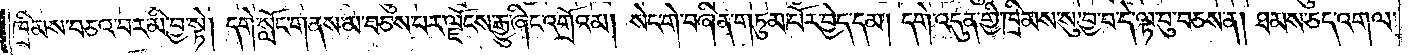ཁྲིམས་བཅའ་བར་མི་བྱ་སྟེ། དགེ་སློང་གནས་མ་བཅས་པར་ལྗོངས་རྒྱུ་ཞིང་འགྲོའམ། སེང་གེ་བཞིན་གཏུམ་པོར་བྱེད་དམ། དགེ་འདུན་གྱི་ཁྲིམས་སུ་བྱ་བ་དེ་ལྟ་བུ་བཅས་ན། ཐམས་ཅད་འགལ་
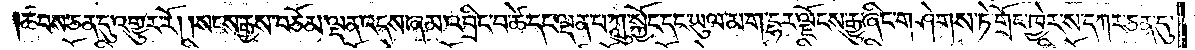ཚབས་ཅན་དུ་འགྱུར་རོ། །སངས་རྒྱས་བཅོམ་ལྡན་འདས་ཞམ་འབྲིང་བ་ཚེ་དང་ལྡན་པ་ཀླུ་སྐྱོང་དང་ཡུལ་མ་ག་དྷར་ལྗོངས་རྒྱུ་ཞིང་གཤེགས་ཏེ་གྲོང་ཁྱེར་ས་དཀར་ཅན་དུ་
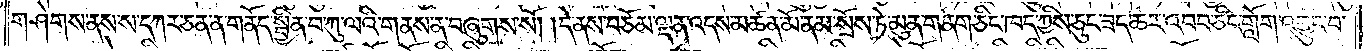གཤེགས་ནས་དཀར་ཅན་ན་གནོད་སྦྱིན་བ་ཀུ་ལའི་གནས་ན་བཞུགས་སོ། །དེ་ནས་བཅོམ་ལྡན་འདས་མཚན་མོ་ནམ་སྲོས་ཏེ་མུན་གནག་ཅིང་ཁད་ཀྱིས་ཅུང་ཟད་ཆར་འབབ་ཅིང་གློག་འབྱུང་བ་
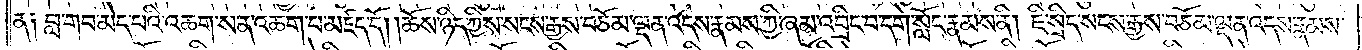ན༑ བླ་གབ་མེད་པའི་འཆག་ས་ན་འཆག་པ་མཛད་དོ། །ཆོས་ཉིད་ཀྱིས་སངས་རྒྱས་བཅོམ་ལྡན་འདས་རྣམས་ཀྱི་ཞམ་འབྲིང་བ་དགེ་སློང་རྣམས་ནི། ཇི་སྲིད་སངས་རྒྱས་བཅོམ་ལྡན་འདས་རྣམས་
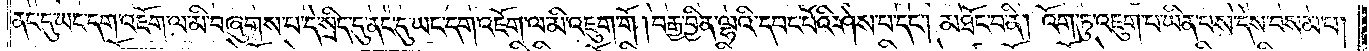ནང་དུ་ཡང་དག་འཇོག་ལ་མི་བཞུགས་པ་དེ་སྲིད་དུ་ནང་དུ་ཡང་དག་འཇོག་ལ་མི་འཇུག་གོ། བརྒྱ་བྱིན་ལྷའི་དབང་པོའི་ཤེས་པ་དང༌། མཐོང་བ་ནི། འོག་ཏུ་འཇུག་པ་ཡིན་པས་དེས་བསམ་པ།
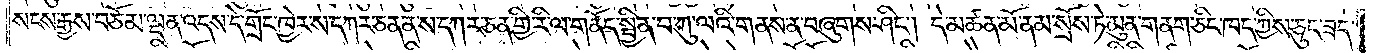སངས་རྒྱས་བཅོམ་ལྡན་འདས་དེ་གྲོང་ཁྱེར་ས་དཀར་ཅན་ན་ས་དཀར་ཅན་གྱི་རི་ལ་གནོད་སྦྱིན་བ་ཀུ་ལའི་གནས་ན་བཞུགས་ཤིང༌། དེ་མཚན་མོ་ནམ་སྲོས་ཏེ་མུན་གནག་ཅིང་ཁད་ཀྱིས་ཅུང་ཟད་
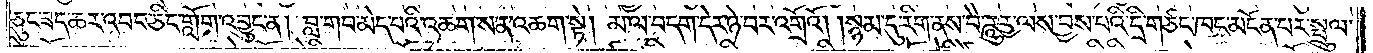ཅུང་ཟད་ཆར་འབབ་ཅིང་གློག་འབྱུང་ན། བླ་གབ་མེད་པའི་འཆག་ས་ན་འཆག་སྟེ། མ་ལ་བདག་དེར་ཉེ་བར་འགྲོའོ། །སྙམ་དུ་རིག་ནས་བཻ་ཌཱུཪྻ་ལས་བྱས་པའི་དྲི་གཙང་ཁང་མངོན་པར་སྤྲུལ་
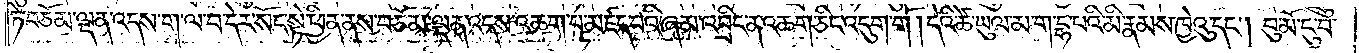ཏེ་བཅོམ་ལྡན་འདས་ག་ལ་བ་དེར་སོང་སྟེ་ཕྱིན་ནས་བཅོམ་ལྡན་འདས་འཆག་པ་མཛད་པའི་ཞམ་འབྲིང་ན་འཆག་ཅིང་འདུག་གོ །དེའི་ཚེ་ཡུལ་མ་ག་དྷ་པའི་མི་རྣམས་ཁྱེའུ་དང༌། བུ་མོ་ངུ་བ་
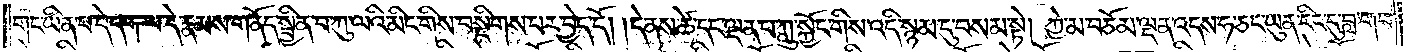གང་ཡིན་པ་དེ་དག་ལ་དེ་རྣམས་གནོད་སྦྱིན་བ་ཀུ་ལའི་མིང་གིས་བསྡིགས་པར་བྱེད་དོ། །དེ་ནས་ཚེ་དང་ལྡན་པ་ཀླུ་སྐྱོང་གིས་འདི་སྙམ་དུ་བསམ་སྟེ། ཀྱེ་མ་བཅོམ་ལྡན་འདས་ཧ་ཅང་ཡུན་རིང་དུ་བླ་གབ་
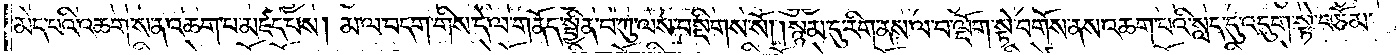མེད་པའི་འཆག་ས་ན་འཆག་པ་མཛད་པས། མ་ལ་བདག་གིས་དེ་ལ་གནོད་སྦྱིན་བ་ཀུ་ལས་བསྡིགས་སོ། །སྙམ་དུ་རིག་ནས་ལ་བ་ལྡོག་སྟེ་བགོས་ནས་འཆག་པའི་སླད་དུ་འདུག་སྟེ་བཅོམ་
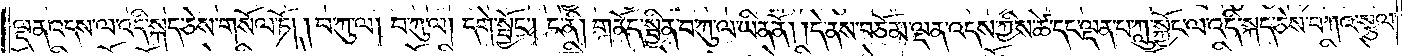ལྡན་འདས་ལ་འདི་སྐད་ཅེས་གསོལ་ཏོ། །བ་ཀུ་ལ། བ་ཀུ་ལ། དགེ་སྦྱོང༌། ང་ནི། གནོད་སྦྱིན་བ་ཀུ་ལ་ཡིན་ནོ། །དེ་ནས་བཅོམ་ལྡན་འདས་ཀྱིས་ཚེ་དང་ལྡན་པ་ཀླུ་སྐྱོང་ལ་འདི་སྐད་ཅེས་བཀའ་སྩལ་
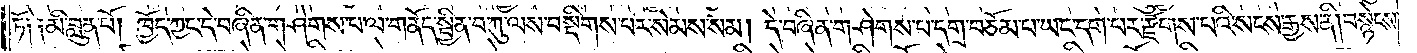ཏོ༑ ༑མི་བླུན་པོ། ཁྱོད་ཀྱང་དེ་བཞིན་གཤེགས་པ་ལ་གནོད་སྦྱིན་བ་ཀུ་ལས་བསྡིགས་པར་སེམས་སམ། དེ་བཞིན་གཤེགས་པ་དགྲ་བཅོམ་པ་ཡང་དག་པར་རྫོགས་པའི་སངས་རྒྱས་ནི། བསྙེངས་
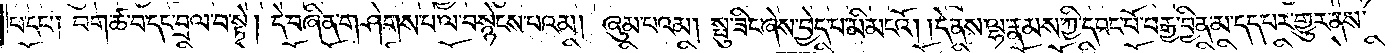པ་དང༌། བག་ཚ་བ་དང་བྲལ་བ་སྟེ། དེ་བཞིན་གཤེགས་པ་ལ་བསྙེངས་པའམ། ཞུམ་པའམ། སྤུ་ཟིང་ཞེས་བྱེད་པ་མི་མངའོ། །དེ་ནས་ལྷ་རྣམས་ཀྱི་དབང་པོ་བརྒྱ་བྱིན་མ་དད་པར་གྱུར་ནས་
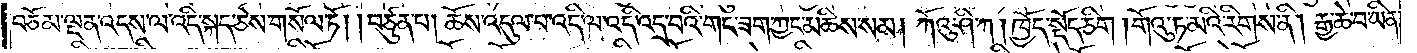བཅོམ་ལྡན་འདས་ལ་འདི་སྐད་ཅེས་གསོལ་ཏོ། །བཙུན་པ། ཆོས་འདུལ་བ་འདི་ལ་འདི་འདྲ་བའི་གང་ཟག་ཀྱང་མཆིས་སམ། ཀོའུ་ཤི་ཀ། ཁྱོད་སྡོད་ཅིག །གོའུ་ཏ་མའི་རིགས་ནི། རྒྱ་ཆེ་བ་ཡིན་
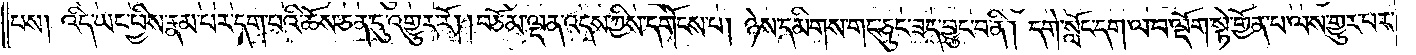པས། འདི་ཡང་ཕྱིས་རྣམ་པར་དག་པའི་ཆོས་ཅན་དུ་འགྱུར་རོ། །བཅོམ་ལྡན་འདས་ཀྱིས་དགོངས་པ། ཉེས་དམིགས་གང་ཅུང་ཟད་བྱུང་བ་ནི། དགེ་སློང་དག་ལ་བ་ལྡོག་སྟེ་གྱོན་པ་ལས་གྱུར་པར་
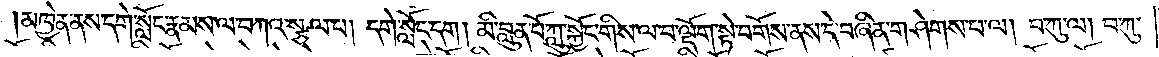མཁྱེན་ནས་དགེ་སློང་རྣམས་ལ་བཀའ་སྩལ་པ། དགེ་སློང་དག། མི་བླུན་པོ་ཀླུ་སྐྱོང་གིས་ལ་བ་ལྡོག་སྟེ་བགོས་ནས་དེ་བཞིན་གཤེགས་པ་ལ། བ་ཀུ་ལ། བ་ཀུ་
